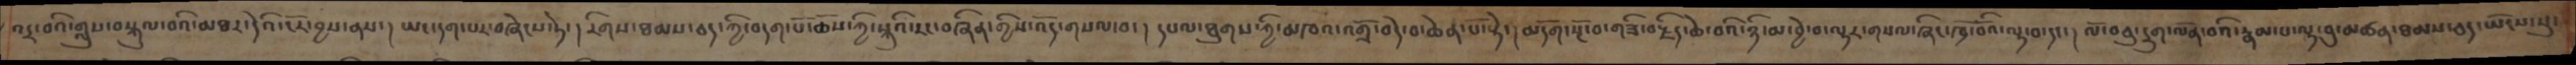འདྲ་བའི་གླུས་བསྐུལ་བའི་མཐར་དེའི་ངོར་བྱས་ནས་། ཡང་དག་པར་བཞེངས་ཏེ་། རིགས་ཐམས་ཅད་ཀྱི་བདག་པོ་ཆོས་ཀྱི་སྐུའི་རང་བཞིན་གྱིས་འོད་གསལ་བ་། དཔལ་ཐུགས་ཀྱི་མཁའ་འགྲོ་བདེ་བ་ཆེན་པོ་སྟེ་།མདོག་སྔོ་བ་གཟི་བརྗིད་ཆེ་བའི་ཉི་མ་བྱེ་བ་ལྟར་གསལ་ཞིང་ཁྲོ་བོའི་ལྟ་བ་དང་། ལོ་བཅུ་དྲུག་ལོན་བའི་རྣམ་པ་ལྟ་བུ་མཚན་ཐམས་ཅད་ཡོངས་སུ་
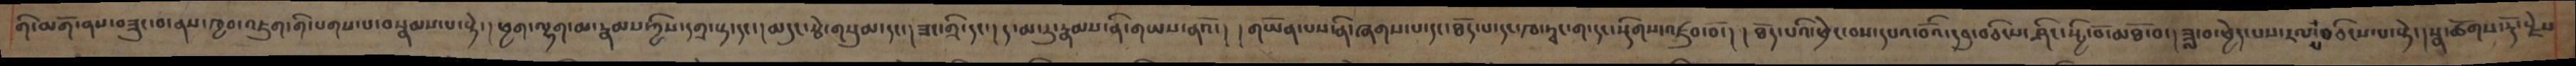གི་མགོ་ནས་བཟུང་བ་ནས་ཁྱབ་འཇུག་གི་པགས་པ་བསྣམས་པ་སྟེ་། ཕྱག་ལྷག་མ་རྣམས་ཀྱིས་དགྲ་སྟ་དང་། མདུང་རྩེ་གསུམ་དང་།ཟང་གྲི་དང་།ད་མ་རུ་རྣམས་ནི་གཡས་ནའོ་། །གཡོན་པས་ནི་ཞགས་པ་དང་ཐོད་པ་དང་ཁ་ཏྭང་ག་དང་སྡིགས་འཛུབ་བོ་། །ཐོད་པའི་འཕྲེང་བས་དཔའ་བོའི་དབུ་བཅིངས་ཤིང་སྤྱི་བོ་མཐོ་བ་། ཟླ་བ་ཕྱེད་པས་རལ་པ་བཅིངས་པ་སྟེ་། སྣ་ཚོགས་རྡོ་རྗེས
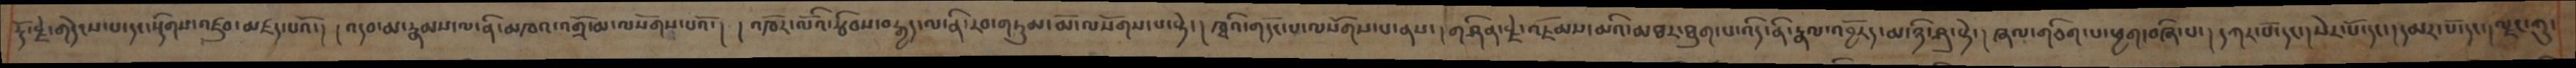རྡོ་རྗེ་གདེངས་པ་དང་སྡིགས་འཛུབ་མཛད་པའོ་། །འདབ་མ་རྣམས་ལ་ནི་མཁའ་འགྲོ་མ་ལསོགས་པའོ་། །འཁོར་ལོའི་རྩིབས་བརྒྱད་ལ་ནི་རབ་གཏུམ་མོ་ལསོགས་པ་སྟེ་། ཁྭའི་གདོང་པ་ལསོགས་པ་ནས་། གཤིན་རྗེ་འཇོམས་མའི་མཐར་ཐུག་པ་འདི་ནི་རྣལ་འབྱོརད་མ་ཉི་ཤུ་སྟེ་། ཞལ་གཅིག་པ་ཕྱག་བཞི་པ་། དཀར་པོ་དང་།སེར་པོ་དང་།དམར་པོ་དང་།ལྗང་ཀུ་
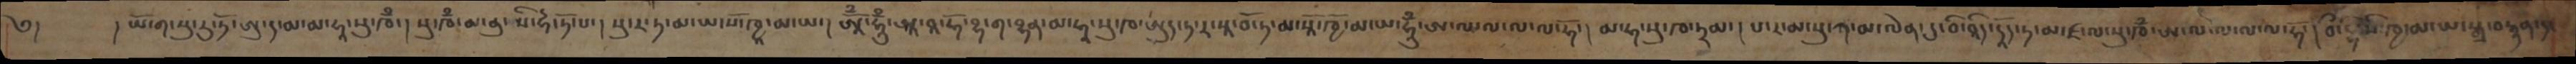༄།   །ཡོ་ག་སུ་རུ་ཏོ་ཨུ་ད་མ་མ་ཧཱ་སུ་ཁྃ་། སུ་ཁྃ་མ་ནུ་སི་ཧེ་ཏོ་པ་། སུ་ར་ཏ་མ་ཡ་སོ་ཁྱཱ་མ་ཡ་། ཨཱོྃ་ཧཱུྃ་ཨཱ་བཱ་ཧོ་བྷ་ག་བྷན་མ་ཧཱ་སུ་ཁ་ཨུད་ཏ་ར་སཱ་བོ་ཏ་མ་སཱོ་ཁྱོ་མ་ཡ་ཧཱུྃ་ཨ་ལ་ལ་ལ་ལཧོ་། མ་ཧ་སུ་ཁ་ཏྲམ་། པ་ར་མ་སུ་ཀ་མ་ལེན་དུ་བི་བཱིད་དཱོད་ཏ་མ་ཛ་ལ་སུ་ཁྃ་ཨ་ལ་ལ་ལ་ལ་ཧོ་། བྀ་དྷ་སོ་ཁྱ་མ་ཡ་སྒྲ་བརྙན་དང
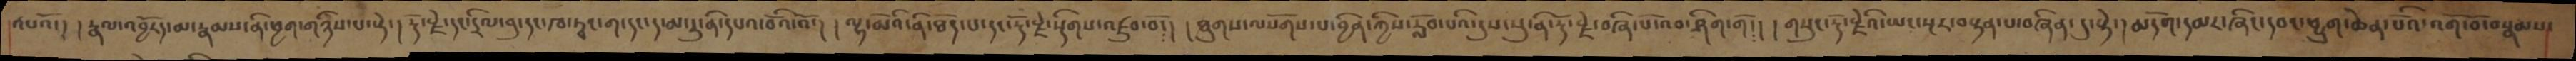འཔའོ་། །རྣལ་འབྱོརད་མ་རྣམས་ནི་ཕྱག་གཉིས་པ་སྟེ་། རྡོ་རྗེ་དང་དྲིལ་བུ་དང་ཁ་ཏྭང་ག་དང་ད་མ་རུ་ནི་དཔའ་བོའི་འོ་། །ལྷ་མོའི་ནི་ཐོད་པ་དང་རྡོ་རྗེ་སྡིགས་འཛུབ་བོ་། །ཐུགས་ལ་སོགས་པ་བྱིན་ཀྱིས་རློབ་པའི་དུས་སུ་ནི་རྡོ་རྗེ་བཞི་པོ་འབ་ཤིག་གོ་། །གསུང་རྡོ་རྗེའི་ཡང་སྔར་བསྟན་པ་བཞིན་དུ་སྟེ་། མདོག་དམར་ཞིང་དབང་ཕྱུག་ཆེན་པོའི་འགོ་བོ་བསྣམས་
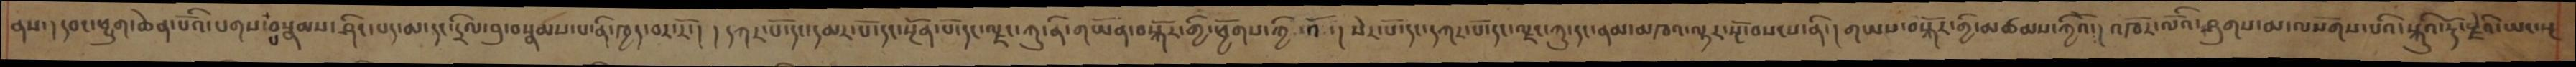ནས་། དབང་ཕྱུག་ཆེན་པོའི་པགས་པ་བསྣམས་ཤིང་པད་མ་དང་དྲིལ་བུ་བསྣམས་པ་ནི་ཁྱད་བར་རོ་། །དཀར་པོ་དང་དམར་པོ་དང་སྔོན་པོ་དང་ལྗང་ཀུ་ནི་གཡོན་བསྐོར་གྱི་ཕྱོགས་ཀྱི་འོ་། སེར་པོ་དང་དཀར་པོ་དང་ལྗང་ཀུ་དང་ནམ་མཁའ་ལྟར་སྔོ་བསངས་ནི་། གཡས་བསྐོར་གྱི་མཚམས་ཀྱིའོ་། འཁོར་ལོའི་ཤུགས་མ་ལསོགས་པའི་སྐུའི་རྡོ་རྗེའི་ཡང་སྔ
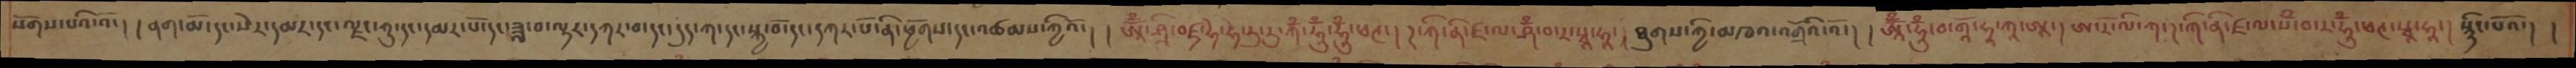སོགས་པའི་འོ་། །ནག་མོ་དང་སེར་དམར་དང་ལྗང་ཀུ་དང་དམར་པོ་དང་ཟླ་བ་ལྟར་དཀར་བ་དང་དུད་ཀ་དང་སྐྱ་བོ་དང་དཀར་པོ་ནི་ཕྱོགས་དང་འཚམས་ཀྱིའོ་། །ཨཱོྃ་ཤྲི་བཛྲ་ཧེ་ཧེ་རུ་རུ་ཀྃ་ཧཱུྃ་ཧཱུྃ་ཕཊ་། ཌ་ཀི་ནི་ཛ་ལ་ཤྃ་བ་ར་སྭཱ་ཧཱ་། ཐུགས་ཀྱི་མཁའ་འགྲོའི་འོ་། ཨཱོྃ་ཧཱུྃ་བ་གཱོ་ཧཱ་ཀཱ་ཨཱ་། ཨ་རོ་ལི་ཀ་ཌ་ཀི་ནི་ཛ་ལ་སྃ་བ་ར་ཧཱུྃ་ཕཊ་སྭཱ་ཧཱ་། སྙིང་པའོ་། །
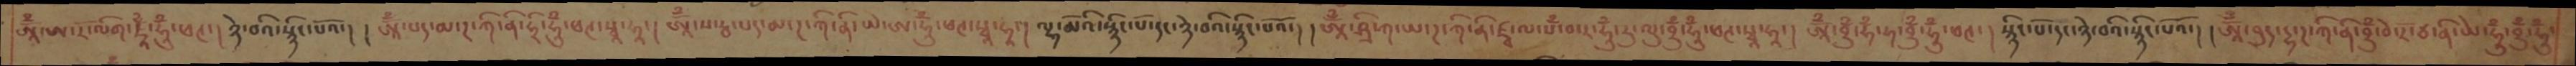ཨཱོྃ་ཨ་རོ་ལིག་ཛཱྃ་ཧཱུྃ་ཕཊ་། ཉེ་བའི་སྙིང་པོའོ་། ཨཱོྃ་པད་མ་ཌ་ཀི་ནི་ཧྲི་ཧཱུྃ་ཕཊ་སྭཱ་ཧཱ་། ཨཱོྃ་ས་རྦ་པད་མ་ཌ་ཀི་ནི་ཡེ་ཨ་ཧཱུྃ་ཕཊ་སྭཱ་ཧཱ་། ལྷ་མོའི་སྙིང་པོ་དང་ཉེ་བའི་སྙིང་པོའོ་། །ཨཱོྃ་ཤྲི་ཀ་ཡ་ཌ་ཀི་ནི་ཛྭ་ལ་སྃ་བ་ར་ཧཱུྃ་རུ་ལུ་བྲུྃ་ཧཱུྃ་ཕཊ་སྭཱ་ཧཱ་། ཨཱོྃ་བྲུྃ་ཧྃ་ཧ་བྲུྃ་ཧཱུྃ་ཕཊ་། སྙིང་པོ་དང་ཉེ་བའི་སྙིང་པོའོ་། །ཨཱོྃ་བུད་དྷ་ཌ་ཀི་ནི་བྲུྃ་བེ་རོ་ཙ་ནི་ཡེ་ཧཱུྃ་བྲུྃ་ཧཱུྃ་
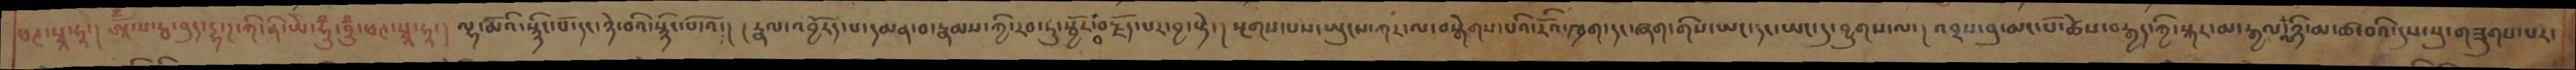ཕཊ་སྭཱ་ཧཱ་། ཨཱོྃ་ས་རྦ་བུད་དྷ་ཌ་ཀི་ནི་ཡེ་ཧཱུྃ་ཧཱུྃ་ཕཊ་སྭཱ་ཧཱ་། ལྷ་མོའི་སྙིང་པོ་དང་ཉེ་བའི་སྙིང་པོ་འོ་། །རྣལ་འབྱོརད་པ་དམན་བ་རྣམས་ཀྱི་རབ་ཏུ་སྦྱོར་བ་བརྗོད་པར་བྱ་སྟེ་། སྔགས་པས་ཡུངས་ཀར་ལ་བསྒེགས་པའི་རོའི་ཁྲག་དང་ཞག་གིས་ཡང་དང་ཡང་དུ་བྱུགས་ལ་།འབྲས་སུ་མང་པོ་ཚེས་བརྒྱད་ཀྱི་སྐར་མ་རྒྱལ་ལ་ཉི་མ་ཚ་བའི་དུས་སུ་གཟུགས་པར་
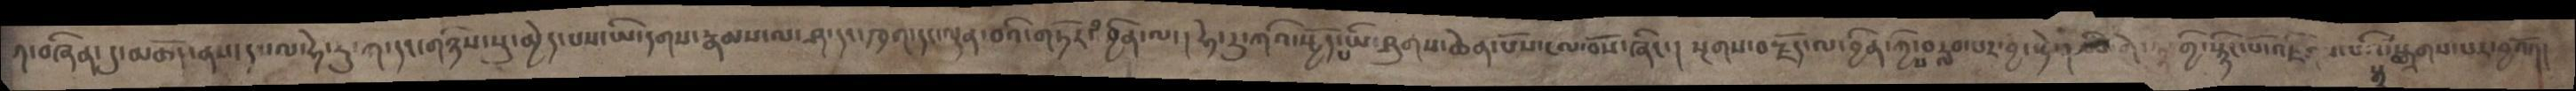ག་བཞིན་དུ་མཆོད་ནས་དཔལ་ཧེ་རུ་ཀ་དང་གཉིས་སུ་མྱེད་པས་ཡི་དགས་རྣམས་ལ་ཤ་དང་ཁྲག་དང་ལྡན་བའི་གཏོར་བ་བྱིན་ལ་། ཧེ་རུ་ཀའི་སྤྱོད་པ་ཡི་ཤུགས་ཆེན་པོས་ངལ་བསོ་ཞིང་། སྔགས་བརྗོད་ལ་བྱིན་ཀྱིས་བརླབ་པར་བྱ་སྟེ་། ཡི་གེ་ ་གྱི་སྙིང་པོ་འཇིགས་པའི་སྒྲ་སྒྲགས་པར་བྱའོ་།།
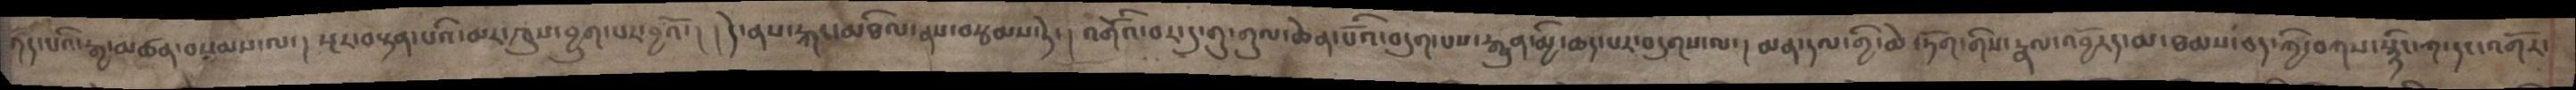གད་པའི་རྒྱ་མཚན་བསམས་ལ་། སྔར་བསྟན་པའི་མར་ཁུས་བྱུག་པར་བྱའོ་། །དེ་ནས་རྐང་མཐིལ་ནས་བརྩམས་ཏེ་། འགོའི་བར་དུ་གུ་གུལ་ཆེན་པོའི་བདུག་པས་རྒྱུན་མྱི་ཆད་པར་བདུགས་ལ་། མན་དལ་གྱི་མེ་ཏོག་གིས་རྣལ་འབྱོརད་མ་ཐམས་ཅད་ཀྱི་བཀས་སྙིང་ཀ་དང་འགོར་
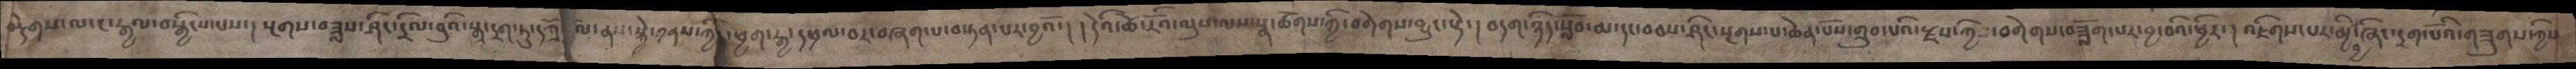བརྡེགས་ལ་ང་རྒྱལ་བསྒྱིངས་པས་། སྔགས་བཟླས་ཤིང་དྲིལ་བུའི་སྒྲ་དྲག་ཏུ་དཀྲོལ་ནས་སྐྱེ་གནས་ཀྱི་ཕྱག་རྒྱ་དཕྲལ་བར་བཞག་པ་བསྟན་པར་བྱའོ་། །དེའི་ཚེ་རོའ་ལུས་ལས་སྣ་ཚོགས་ཀྱི་བགེགས་བྱུང་སྟེ་། བདག་ཉིད་སློབ་མ་དང་བཅས་ཤིང་སྔགས་པ་ཆེན་པོས་གྲུབ་པའི་རྫས་ཀྱིས་བགེགས་བཟློག་པར་བྱ་བའི་ཕྱིར་། འཇིགས་པར་མྱི་བྱ་ཞིང་དྲག་པོའི་གཟུགས་ཀྱིས་
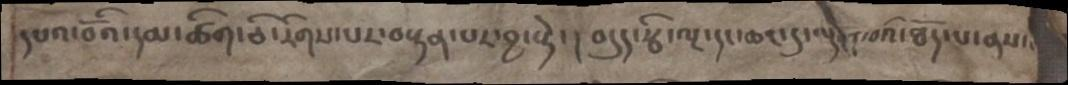དཔའ་བོའི་དམ་ཚིག་ཅི་རིགས་པར་བསྟན་པར་བྱ་སྟེ་། བདུད་རྩི་ལྔ་དང་ཆང་དུ་ལྡེང་བའི་ཐོད་པ་ནས་
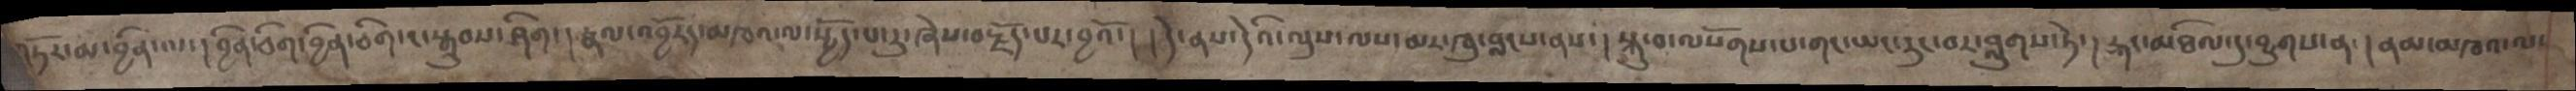གཏོར་མ་བྱིན་ལ་།བྱིན་ཅིག་བྱིན་ཅིག་ང་སྒྲུབས་ཤིག་། རྣལ་འབྱོརད་མཁའ་ལ་སྤྱོད་པ་རུ་ཞེས་བརྗོད་པར་བྱའོ་། །དེ་ནས་དེའི་ལུས་ལས་མར་ཁུ་བླང་ནས་། སྐུ་བ་ལསོགས་པ་གང་ཡང་རུང་བར་བླུགས་ཏེ་། རྐང་མཐིལ་དུ་བྱུགས་ན་།ནམ་མཁའ་ལ་
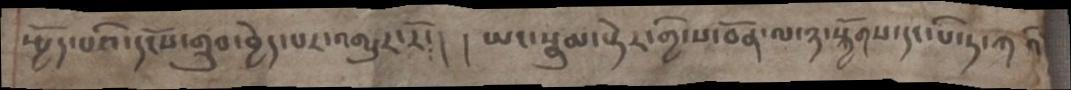སྤྱོད་པའི་དངོས་གྲུབ་བྱེད་པར་འགྱུར་རོ་། །ཡང་སྣུམ་སྟེར་གྱི་ས་བོན་ལ་ཉ་སྐྱོགས་དང་པི་ཏ་ཀ འི
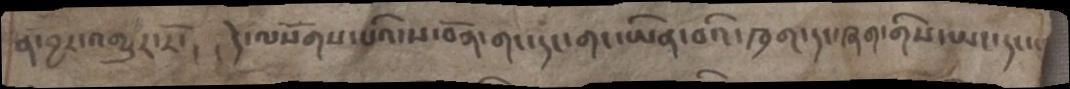ན་བྱར་འགྱུར་རོ་། དེ་ལསོགས་པའི་ས་བོན་གང་དང་གང་ཡིན་བའི་ཁྲག་དང་ཞག་གིས་ཡང་དང་
